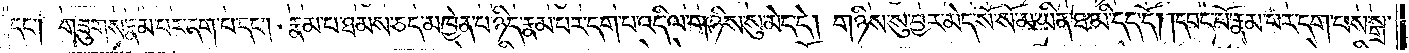དང༌། གཟུགས་རྣམ་པར་དག་པ་དང༌། རྣམ་པ་ཐམས་ཅད་མཁྱེན་པ་ཉིད་རྣམ་པར་དག་པ་འདི་ལ་གཉིས་སུ་མེད་དེ། གཉིས་སུ་བྱར་མེད་སོ་སོ་མ་ཡིན་ཐ་མི་དད་དོ། །དབང་པོ་རྣམ་པར་དག་པས་སྒྲ་
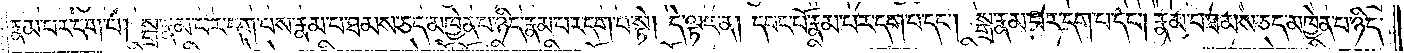རྣམ་པར་དག་པ། སྒྲ་རྣམ་པར་དག་པས་རྣམ་པ་ཐམས་ཅད་མཁྱེན་པ་ཉིད་རྣམ་པར་དག་པ་སྟེ། དེ་ལྟར་ན། དབང་པོ་རྣམ་པར་དག་པ་དང༌། སྒྲ་རྣམ་པར་དག་པ་དང༌། རྣམ་པ་ཐམས་ཅད་མཁྱེན་པ་ཉིད་
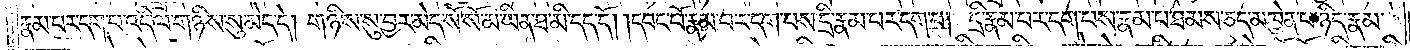རྣམ་པར་དག་པ་འདི་ལ་གཉིས་སུ་མེད་དེ། གཉིས་སུ་བྱར་མེད་སོ་སོ་མ་ཡིན་ཐ་མི་དད་དོ། །དབང་པོ་རྣམ་པར་དག་པས་དྲི་རྣམ་པར་དག་པ། དྲི་རྣམ་པར་དག་པས་རྣམ་པ་ཐམས་ཅད་མཁྱེན་པ་ཉིད་རྣམ་
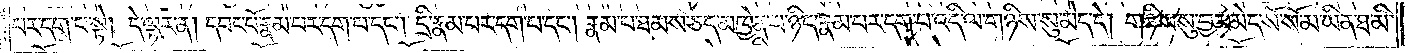པར་དག་པ་སྟེ། དེ་ལྟར་ན། དབང་པོ་རྣམ་པར་དག་པ་དང༌། དྲི་རྣམ་པར་དག་པ་དང༌། རྣམ་པ་ཐམས་ཅད་མཁྱེན་པ་ཉིད་རྣམ་པར་དག་པ་འདི་ལ་གཉིས་སུ་མེད་དེ། གཉིས་སུ་བྱར་མེད་སོ་སོ་མ་ཡིན་ཐ་མི་
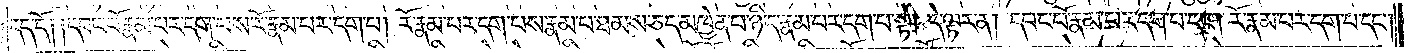དད་དོ༑ ༑དབང་པོ་རྣམ་པར་དག་པས་རོ་རྣམ་པར་དག་པ། རོ་རྣམ་པར་དག་པས་རྣམ་པ་ཐམས་ཅད་མཁྱེན་པ་ཉིད་རྣམ་པར་དག་པ་སྟེ། དེ་ལྟར་ན། དབང་པོ་རྣམ་པར་དག་པ་དང༌། རོ་རྣམ་པར་དག་པ་དང༌།
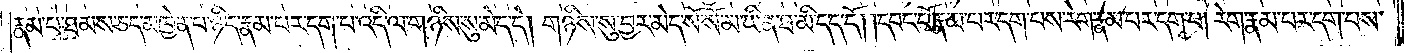རྣམ་པ་ཐམས་ཅད་མཁྱེན་པ་ཉིད་རྣམ་པར་དག་པ་འདི་ལ་གཉིས་སུ་མེད་དེ། གཉིས་སུ་བྱར་མེད་སོ་སོ་མ་ཡིན་ཐ་མི་དད་དོ། །དབང་པོ་རྣམ་པར་དག་པས་རེག་རྣམ་པར་དག་པ། རེག་རྣམ་པར་དག་པས་
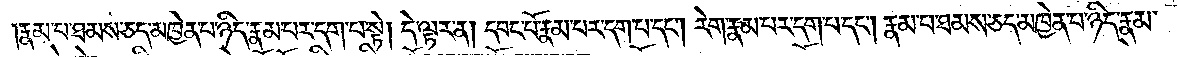རྣམ་པ་ཐམས་ཅད་མཁྱེན་པ་ཉིད་རྣམ་པར་དག་པ་སྟེ། དེ་ལྟར་ན། དབང་པོ་རྣམ་པར་དག་པ་དང༌། རེག་རྣམ་པར་དག་པ་དང༌། རྣམ་པ་ཐམས་ཅད་མཁྱེན་པ་ཉིད་རྣམ་
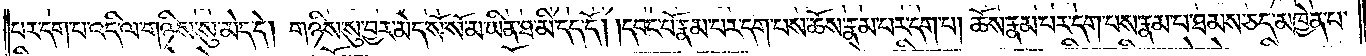པར་དག་པ་འདི་ལ་གཉིས་སུ་མེད་དེ། གཉིས་སུ་བྱར་མེད་སོ་སོ་མ་ཡིན་ཐ་མི་དད་དོ། །དབང་པོ་རྣམ་པར་དག་པས་ཆོས་རྣམ་པར་དག་པ། ཆོས་རྣམ་པར་དག་པས་རྣམ་པ་ཐམས་ཅད་མཁྱེན་པ་
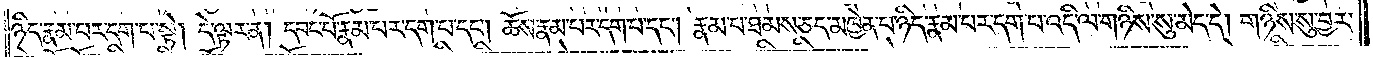ཉིད་རྣམ་པར་དག་པ་སྟེ། དེ་ལྟར་ན། དབང་པོ་རྣམ་པར་དག་པ་དང༌། ཆོས་རྣམ་པར་དག་པ་དང༌། རྣམ་པ་ཐམས་ཅད་མཁྱེན་པ་ཉིད་རྣམ་པར་དག་པ་འདི་ལ་གཉིས་སུ་མེད་དེ། གཉིས་སུ་བྱར་
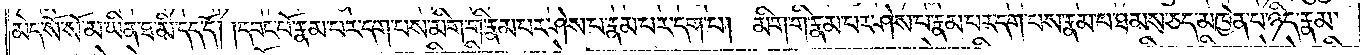མེད་སོ་སོ་མ་ཡིན་ཐ་མི་དད་དོ། །དབང་པོ་རྣམ་པར་དག་པས་མིག་གི་རྣམ་པར་ཤེས་པ་རྣམ་པར་དག་པ། མིག་གི་རྣམ་པར་ཤེས་པ་རྣམ་པར་དག་པས་རྣམ་པ་ཐམས་ཅད་མཁྱེན་པ་ཉིད་རྣམ་
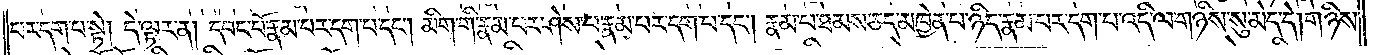པར་དག་པ་སྟེ། དེ་ལྟར་ན། དབང་པོ་རྣམ་པར་དག་པ་དང༌། མིག་གི་རྣམ་པར་ཤེས་པ་རྣམ་པར་དག་པ་དང༌། རྣམ་པ་ཐམས་ཅད་མཁྱེན་པ་ཉིད་རྣམ་པར་དག་པ་འདི་ལ་གཉིས་སུ་མེད་དེ། གཉིས་
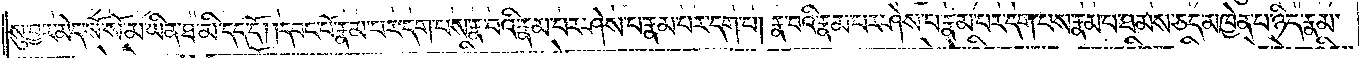སུ་བྱར་མེད་སོ་སོ་མ་ཡིན་ཐ་མི་དད་དོ། །དབང་པོ་རྣམ་པར་དག་པས་རྣ་བའི་རྣམ་པར་ཤེས་པ་རྣམ་པར་དག་པ། རྣ་བའི་རྣམ་པར་ཤེས་པ་རྣམ་པར་དག་པས་རྣམ་པ་ཐམས་ཅད་མཁྱེན་པ་ཉིད་རྣམ་
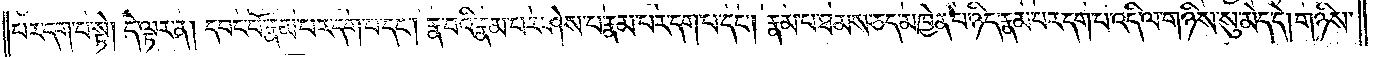པར་དག་པ་སྟེ། དེ་ལྟར་ན། དབང་པོ་རྣམ་པར་དག་པ་དང༌། རྣ་བའི་རྣམ་པར་ཤེས་པ་རྣམ་པར་དག་པ་དང༌། རྣམ་པ་ཐམས་ཅད་མཁྱེན་པ་ཉིད་རྣམ་པར་དག་པ་འདི་ལ་གཉིས་སུ་མེད་དེ། གཉིས་
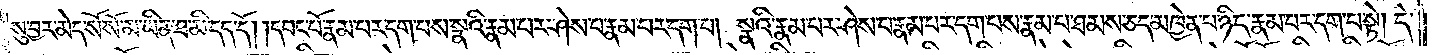སུ་བྱར་མེད་སོ་སོ་མ་ཡིན་ཐ་མི་དད་དོ། །དབང་པོ་རྣམ་པར་དག་པས་སྣའི་རྣམ་པར་ཤེས་པ་རྣམ་པར་དག་པ། སྣའི་རྣམ་པར་ཤེས་པ་རྣམ་པར་དག་པས་རྣམ་པ་ཐམས་ཅད་མཁྱེན་པ་ཉིད་རྣམ་པར་དག་པ་སྟེ། དེ་
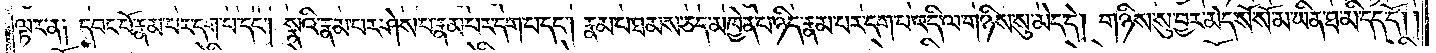ལྟར་ན༑ དབང་པོ་རྣམ་པར་དག་པ་དང༌། སྣའི་རྣམ་པར་ཤེས་པ་རྣམ་པར་དག་པ་དང༌། རྣམ་པ་ཐམས་ཅད་མཁྱེན་པ་ཉིད་རྣམ་པར་དག་པ་འདི་ལ་གཉིས་སུ་མེད་དེ། གཉིས་སུ་བྱར་མེད་སོ་སོ་མ་ཡིན་ཐ་མི་དད་དོ། །
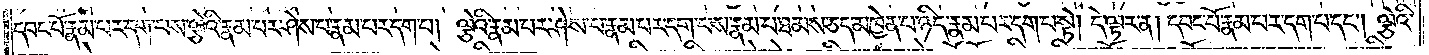དབང་པོ་རྣམ་པར་དག་པས་ལྕེའི་རྣམ་པར་ཤེས་པ་རྣམ་པར་དག་པ། ལྕེའི་རྣམ་པར་ཤེས་པ་རྣམ་པར་དག་པས་རྣམ་པ་ཐམས་ཅད་མཁྱེན་པ་ཉིད་རྣམ་པར་དག་པ་སྟེ། དེ་ལྟར་ན། དབང་པོ་རྣམ་པར་དག་པ་དང༌། ལྕེའི་
